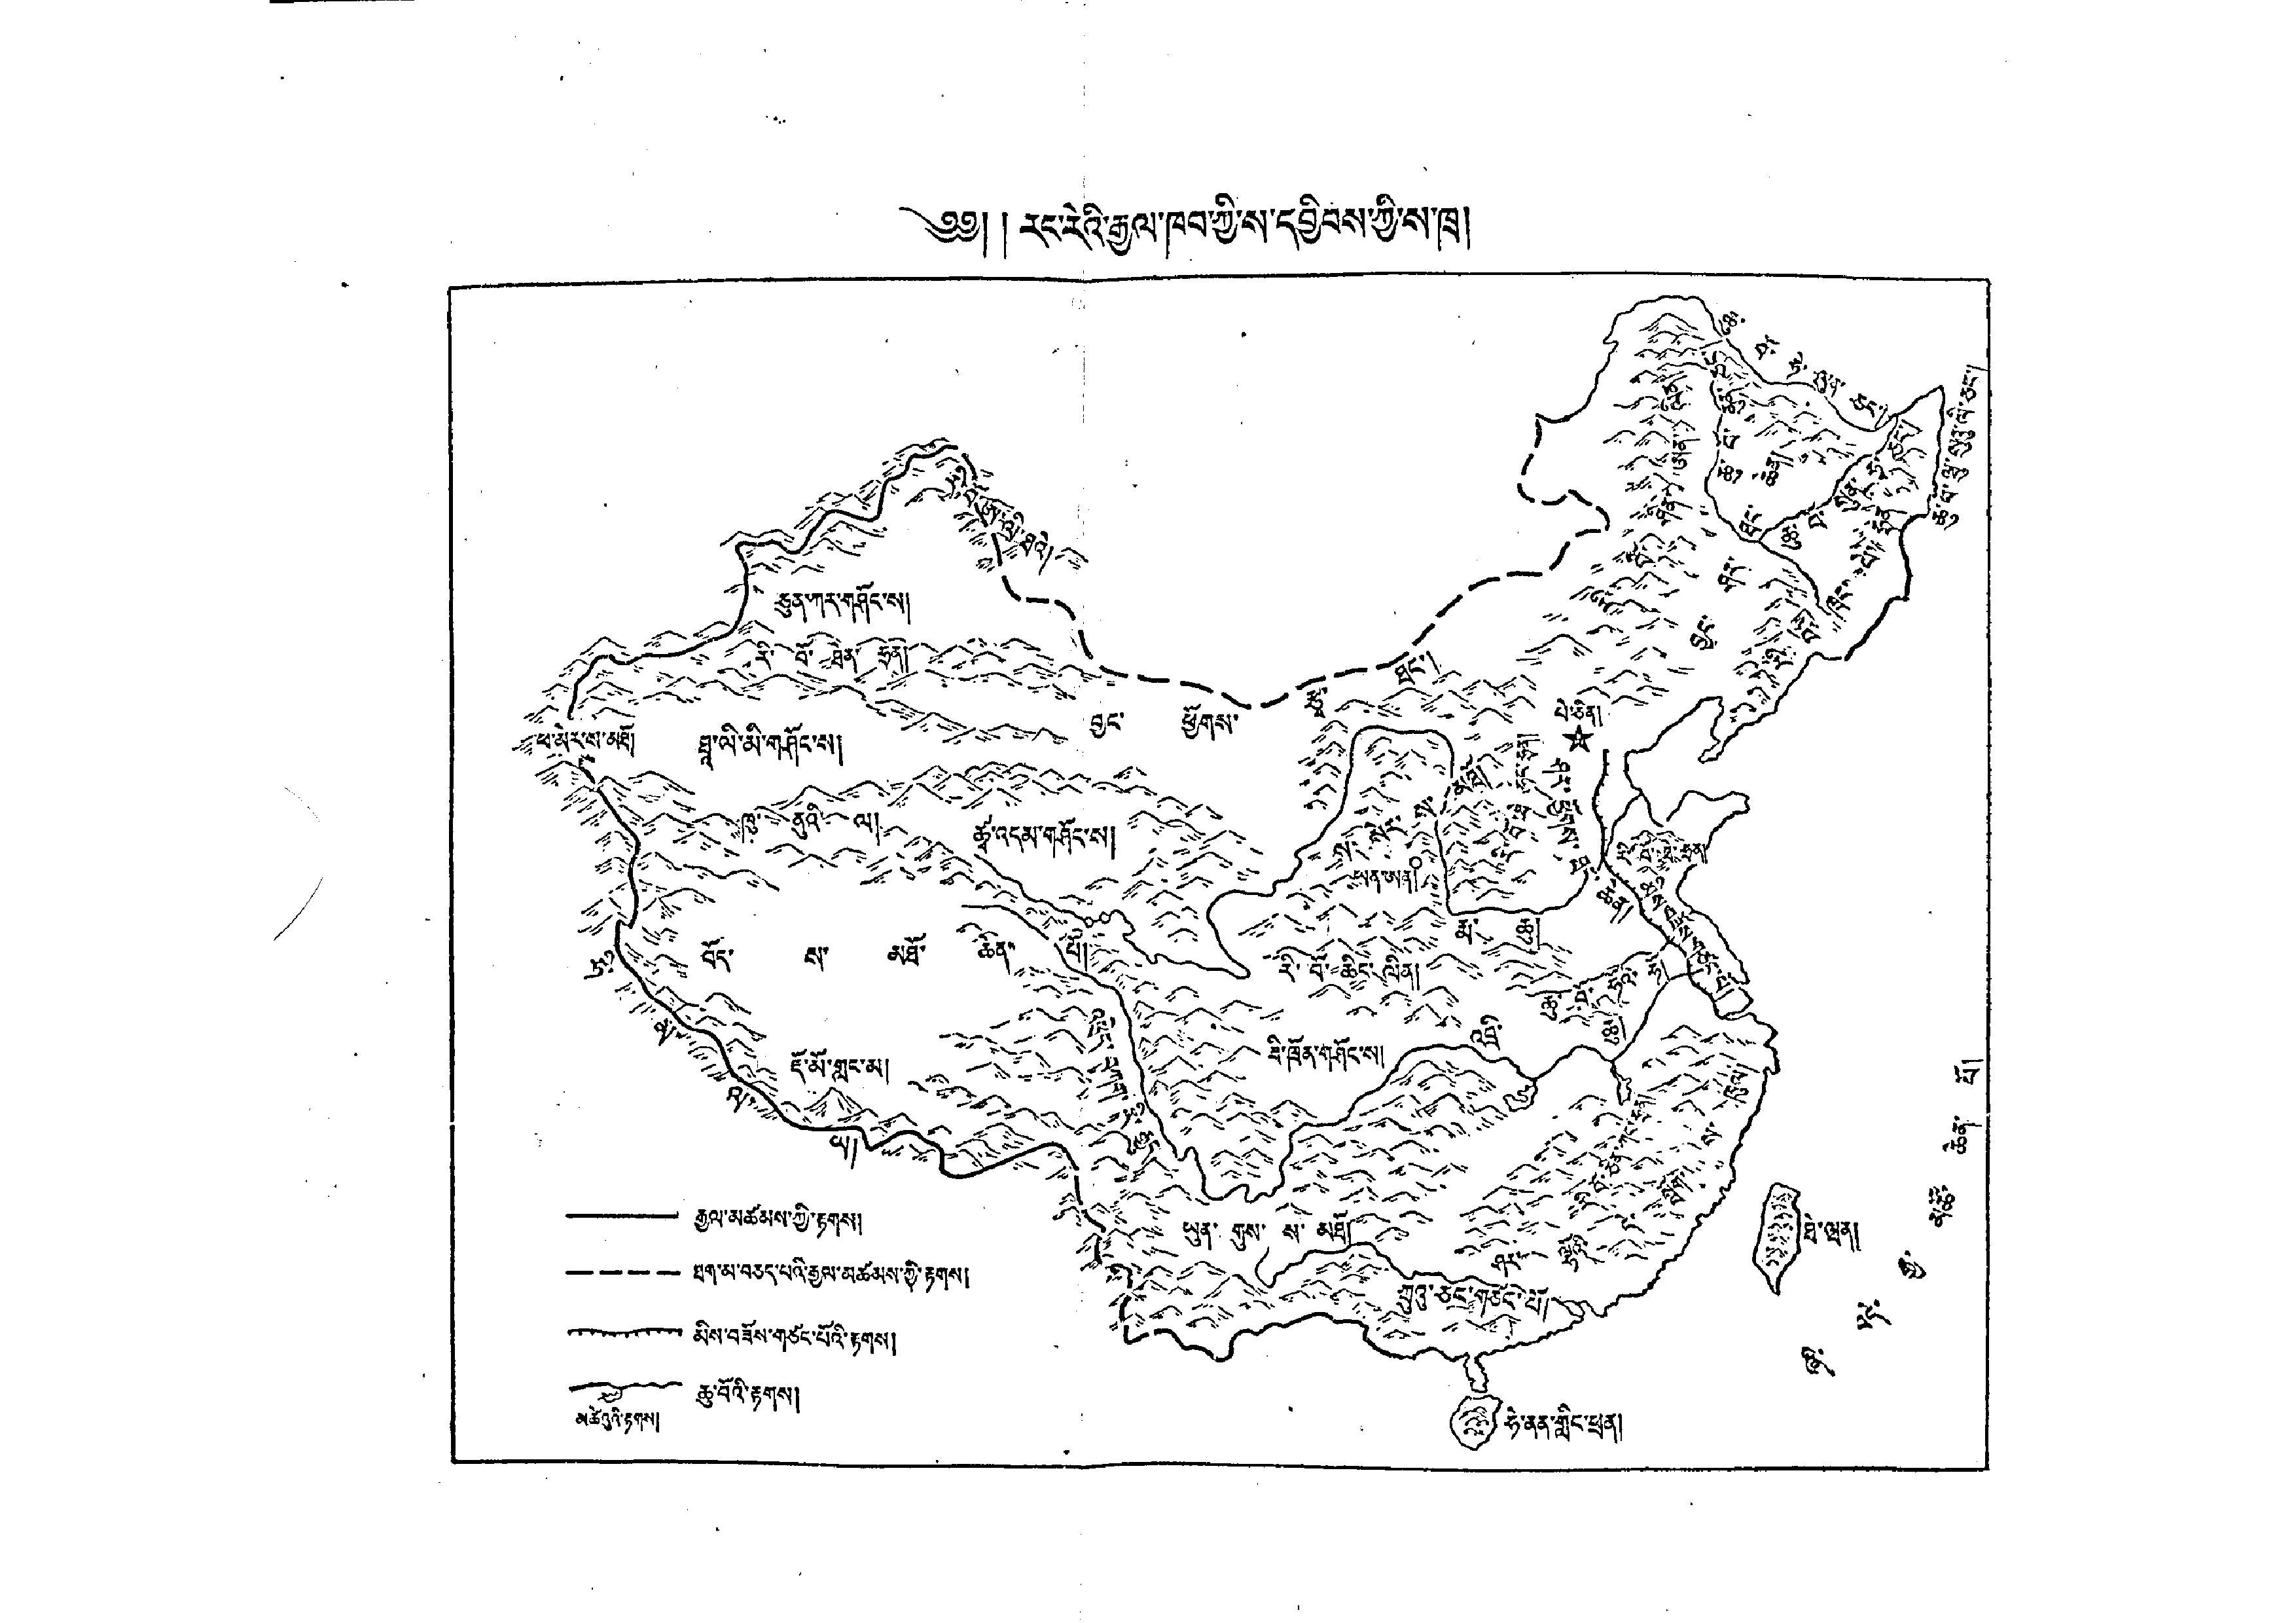༄༅། རང་རེའི་རྒྱལ་ཁབ་ཀྱི་ས་དབྱིབས་ཀྱི་ས་ཁྲ།
ཆུ་བོ་ཧེ་ལུན་ཅང་།
ཆུ་བོ་ནུན་ཅང་།
ཆུ་བོ་ཝུ་སུའུ་ལི་ཅང་།
རི་བོ་ཤིན་ཨན་ལིན།
ཆུ་བོ་སུན་ཧྭ་ཅང་།
བྱང་ཤར་ཐང་ཆེན།
རི་བོ་ཨ་ལི་ཐའེ།
རི་བོ་ཁྲང་པེ་ཧྲན།
ཅུན་ཀར་གཤོང་ས།
བྱང་ཕྱོགས་རྩྭ་ཐང་།
རི་བོ་ཐེན་ཧྲན།
པེ་ཅིན།
ཕ་མེར་ས་མཐོ།
ཐཱ་ལི་མི་གཤོང་ས།
རི་བོ་ཐེ་ཧང་ཧྲན།
ས་སེར་ས་མཐོ།
ཤར་ཕྱོགས་ཐང་ཆེན།
ཁུ་ནུའི་ལ།
ཚྭ་འདམ་གཤོང་ས།
རི་བོ་ཐེ་ཧྲན།
ཡན་ཨན།
མིས་བཟོས་གཙང་པོ།
རྨ་ཆུ།
བོད་ས་མཐོ་ཆེན་པོ།
ཆུ་བོ་ཧོའེ་ཧོ།
ཧི་མ་ལ་ཡ།
རི་བོ་ཆིང་ལིན།
འཕྲེད་བཀག་རི་རྒྱུད།
འབྲི་ཆུ།
ཟི་ཁྲོན་གཤོང་ས།
ཇོ་མོ་གླང་མ།
ཞི་བདེ་རྒྱ་མཚོ་ཆེན་པོ།
ཤར་ལྷོའི་དེ་སྦོག་ས་ཁུལ།
རི་བོ་ཅིན་ཀང་ཧྲན།
རྒྱལ་མཚོམས་ཀྱི་རྟགས།
ཡུན་གུས་ས་མཐོ།
ཐེ་ཝན།
ཐག་མ་བཅད་པའི་རྒྱལ་མཚམས་ཀྱི་རྟགས།
ཀྲུའུ་ཅང་གཙང་པོ།
མིས་བཟོས་གཙང་པོའི་རྟགས།
ཆུ་བོའི་རྟགས།
མཚེའུའི་རྟགས།
ཧེ་ནན་གླིང་ཕྲན།
